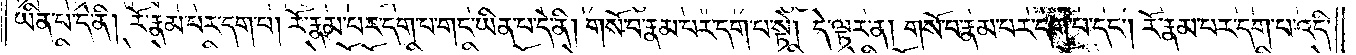ཡིན་པ་དེ་ནི། རོ་རྣམ་པར་དག་པ། རོ་རྣམ་པར་དག་པ་གང་ཡིན་པ་དེ་ནི། གསོ་བ་རྣམ་པར་དག་པ་སྟེ། དེ་ལྟར་ན། གསོ་བ་རྣམ་པར་དག་པ་དང༌། རོ་རྣམ་པར་དག་པ་འདི་
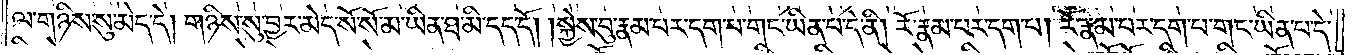ལ་གཉིས་སུ་མེད་དེ། གཉིས་སུ་བྱར་མེད་སོ་སོ་མ་ཡིན་ཐ་མི་དད་དོ། སྐྱེས་བུ་རྣམ་པར་དག་པ་གང་ཡིན་པ་དེ་ནི། རོ་རྣམ་པར་དག་པ། རོ་རྣམ་པར་དག་པ་གང་ཡིན་པ་དེ་
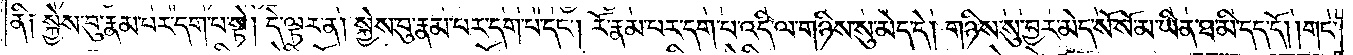ནི༑ སྐྱེས་བུ་རྣམ་པར་དག་པ་སྟེ། དེ་ལྟར་ན། སྐྱེས་བུ་རྣམ་པར་དག་པ་དང༌། རོ་རྣམ་པར་དག་པ་འདི་ལ་གཉིས་སུ་མེད་དེ། གཉིས་སུ་བྱར་མེད་སོ་སོ་མ་ཡིན་ཐ་མི་དད་དོ། །གང་
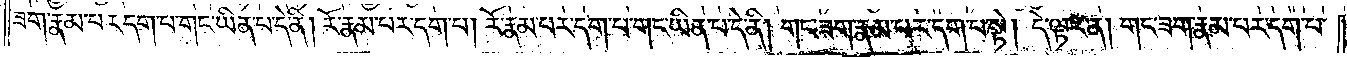ཟག་རྣམ་པར་དག་པ་གང་ཡིན་པ་དེ་ནི། རོ་རྣམ་པར་དག་པ། རོ་རྣམ་པར་དག་པ་གང་ཡིན་པ་དེ་ནི། གང་ཟག་རྣམ་པར་དག་པ་སྟེ། དེ་ལྟར་ན། གང་ཟག་རྣམ་པར་དག་པ་
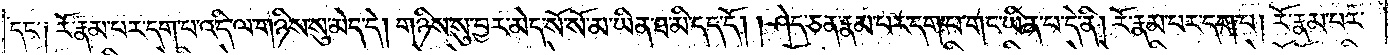དང་༑ རོ་རྣམ་པར་དག་པ་འདི་ལ་གཉིས་སུ་མེད་དེ། གཉིས་སུ་བྱར་མེད་སོ་སོ་མ་ཡིན་ཐ་མི་དད་དོ། །ཤེད་ཅན་རྣམ་པར་དག་པ་གང་ཡིན་པ་དེ་ནི། རོ་རྣམ་པར་དག་པ། རོ་རྣམ་པར་
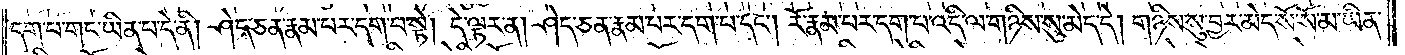དག་པ་གང་ཡིན་པ་དེ་ནི། ཤེད་ཅན་རྣམ་པར་དག་པ་སྟེ། དེ་ལྟར་ན། ཤེད་ཅན་རྣམ་པར་དག་པ་དང༌། རོ་རྣམ་པར་དག་པ་འདི་ལ་གཉིས་སུ་མེད་དེ། གཉིས་སུ་བྱར་མེད་སོ་སོ་མ་ཡིན་
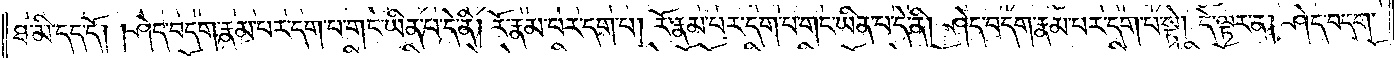ཐ་མི་དད་དོ། །ཤེད་བདག་རྣམ་པར་དག་པ་གང་ཡིན་པ་དེ་ནི། རོ་རྣམ་པར་དག་པ། རོ་རྣམ་པར་དག་པ་གང་ཡིན་པ་དེ་ནི། ཤེད་བདག་རྣམ་པར་དག་པ་སྟེ། དེ་ལྟར་ན། ཤེད་བདག་
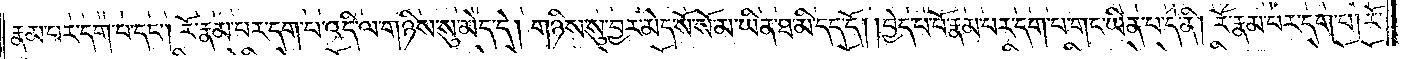རྣམ་པར་དག་པ་དང༌། རོ་རྣམ་པར་དག་པ་འདི་ལ་གཉིས་སུ་མེད་དེ། གཉིས་སུ་བྱར་མེད་སོ་སོ་མ་ཡིན་ཐ་མི་དད་དོ། །བྱེད་པ་པོ་རྣམ་པར་དག་པ་གང་ཡིན་པ་དེ་ནི། རོ་རྣམ་པར་དག་པ། རོ་
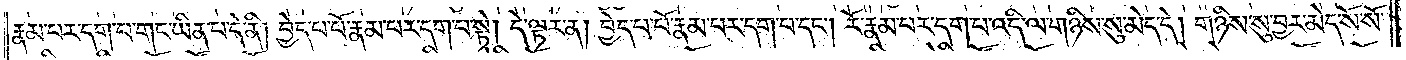རྣམ་པར་དག་པ་གང་ཡིན་པ་དེ་ནི། བྱེད་པ་པོ་རྣམ་པར་དག་པ་སྟེ། དེ་ལྟར་ན། བྱེད་པ་པོ་རྣམ་པར་དག་པ་དང༌། རོ་རྣམ་པར་དག་པ་འདི་ལ་གཉིས་སུ་མེད་དེ། གཉིས་སུ་བྱར་མེད་སོ་སོ་
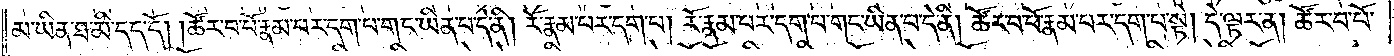མ་ཡིན་ཐ་མི་དད་དོ། །ཚོར་བ་པོ་རྣམ་པར་དག་པ་གང་ཡིན་པ་དེ་ནི། རོ་རྣམ་པར་དག་པ། རོ་རྣམ་པར་དག་པ་གང་ཡིན་པ་དེ་ནི། ཚོར་བ་པོ་རྣམ་པར་དག་པ་སྟེ། དེ་ལྟར་ན། ཚོར་བ་པོ་
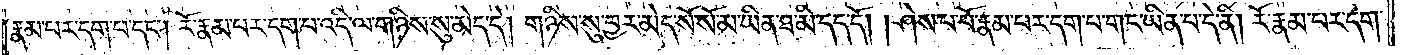རྣམ་པར་དག་པ་དང༌། རོ་རྣམ་པར་དག་པ་འདི་ལ་གཉིས་སུ་མེད་དེ། གཉིས་སུ་བྱར་མེད་སོ་སོ་མ་ཡིན་ཐ་མི་དད་དོ། །ཤེས་པ་པོ་རྣམ་པར་དག་པ་གང་ཡིན་པ་དེ་ནི། རོ་རྣམ་པར་དག་
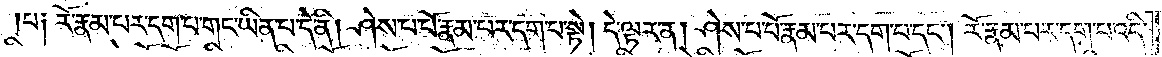པ༑ རོ་རྣམ་པར་དག་པ་གང་ཡིན་པ་དེ་ནི། ཤེས་པ་པོ་རྣམ་པར་དག་པ་སྟེ། དེ་ལྟར་ན། ཤེས་པ་པོ་རྣམ་པར་དག་པ་དང༌། རོ་རྣམ་པར་དག་པ་འདི་
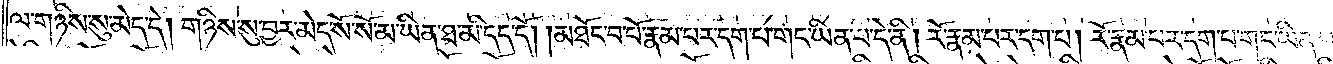ལ་གཉིས་སུ་མེད་དེ། གཉིས་སུ་བྱར་མེད་སོ་སོ་མ་ཡིན་ཐ་མི་དད་དོ། །མཐོང་བ་པོ་རྣམ་པར་དག་པ་གང་ཡིན་པ་དེ་ནི། རོ་རྣམ་པར་དག་པ། རོ་རྣམ་པར་དག་པ་གང་ཡིན་པ་
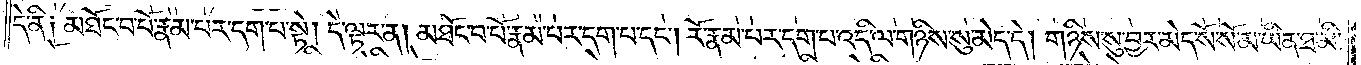དེ་ནི༑ མཐོང་བ་པོ་རྣམ་པར་དག་པ་སྟེ། དེ་ལྟར་ན། མཐོང་བ་པོ་རྣམ་པར་དག་པ་དང༌། རོ་རྣམ་པར་དག་པ་འདི་ལ་གཉིས་སུ་མེད་དེ། གཉིས་སུ་བྱར་མེད་སོ་སོ་མ་ཡིན་ཐ་མི་
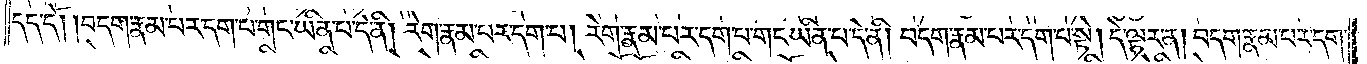དད་དོ། །བདག་རྣམ་པར་དག་པ་གང་ཡིན་པ་དེ་ནི། རེག་རྣམ་པར་དག་པ། རེག་རྣམ་པར་དག་པ་གང་ཡིན་པ་དེ་ནི། བདག་རྣམ་པར་དག་པ་སྟེ། དེ་ལྟར་ན། བདག་རྣམ་པར་དག་
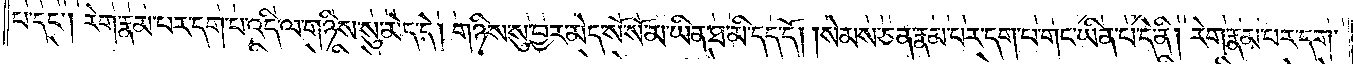པ་དང་༑ རེག་རྣམ་པར་དག་པ་འདི་ལ་གཉིས་སུ་མེད་དེ། གཉིས་སུ་བྱར་མེད་སོ་སོ་མ་ཡིན་ཐ་མི་དད་དོ། །སེམས་ཅན་རྣམ་པར་དག་པ་གང་ཡིན་པ་དེ་ནི། རེག་རྣམ་པར་དག་
